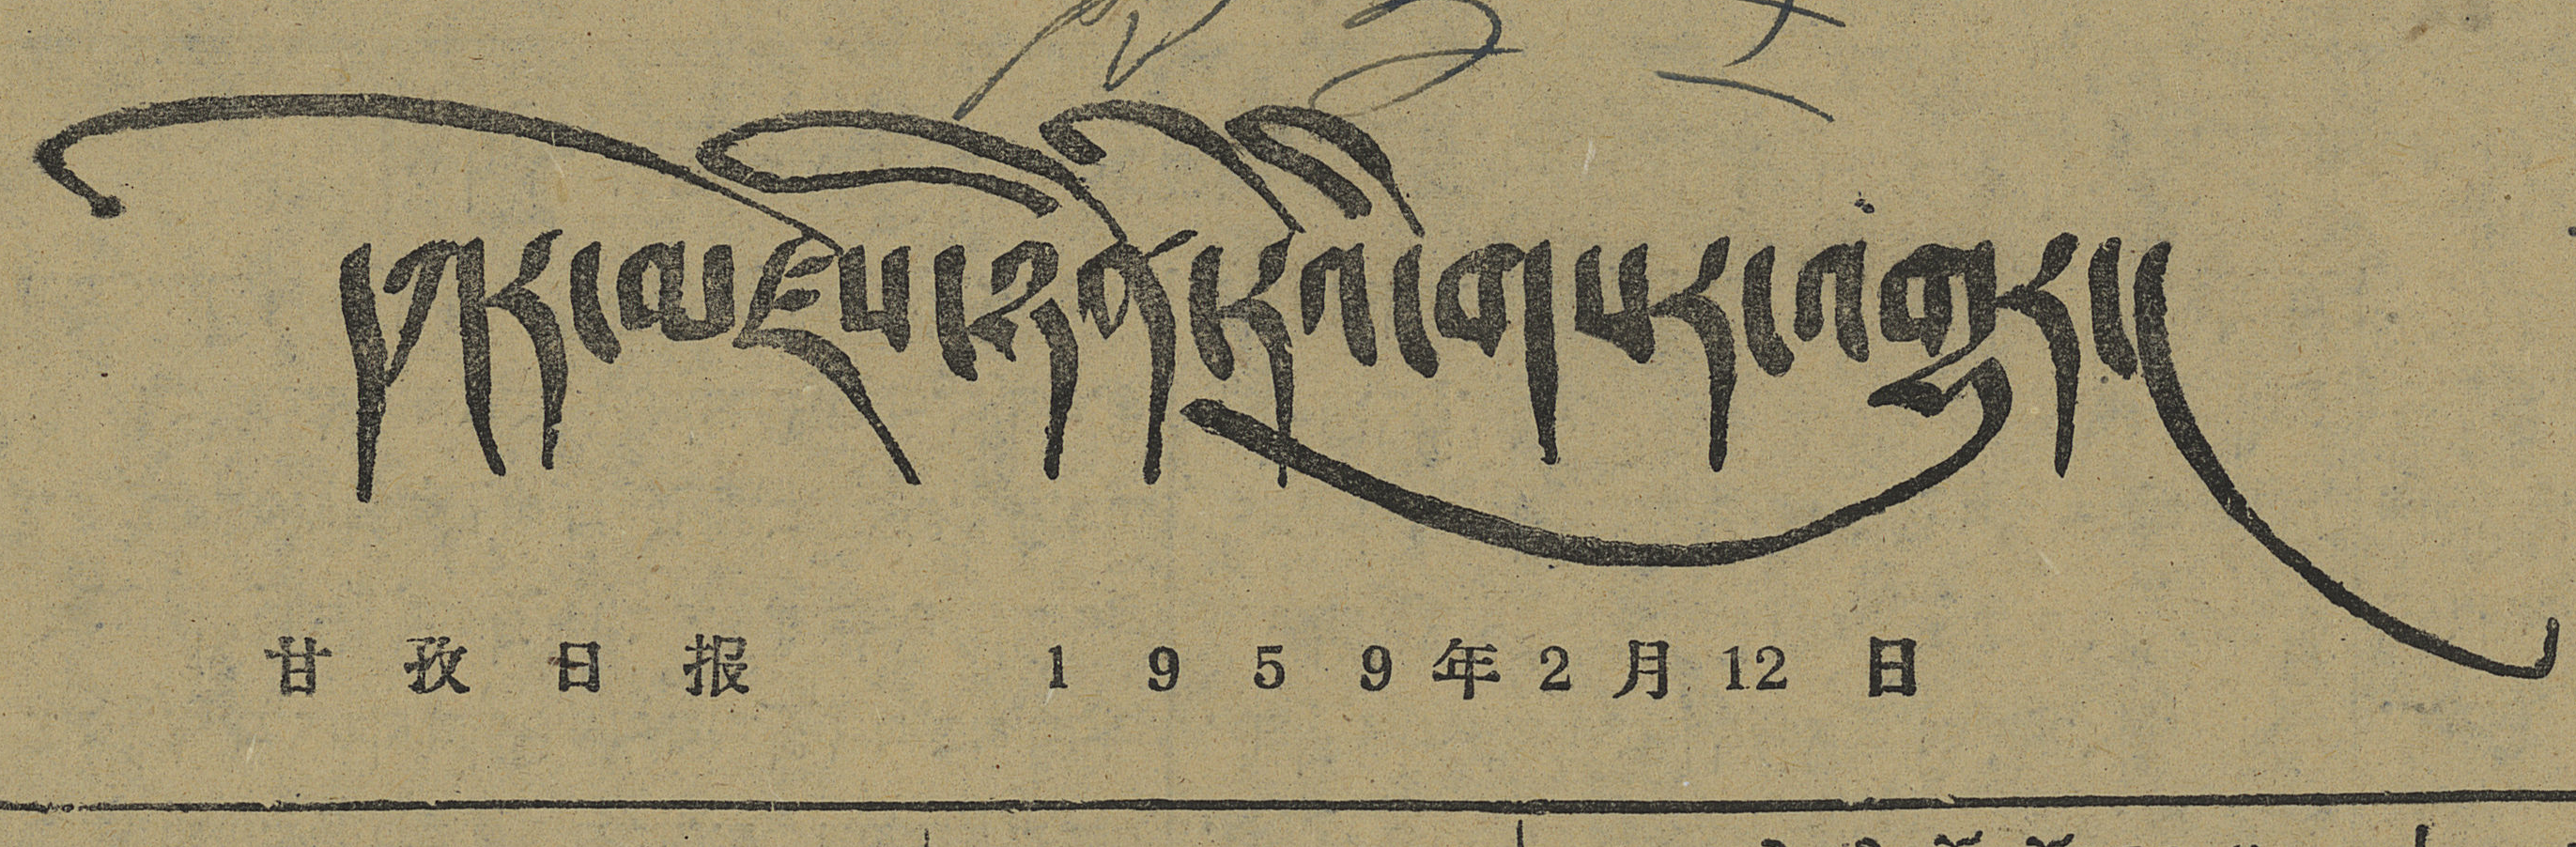དཀར་མཛེས་ཉིན་རེའི་གསར་འགྱུར།
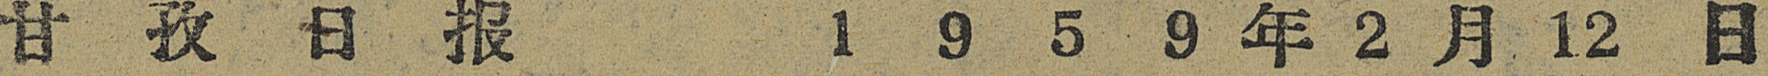甘 孜 日 报 1 9 5 9 年 2 月 12 日
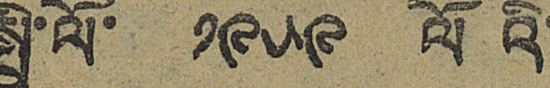སྤྱི་ལོ་ ༡༩༥༩ ལོའི་
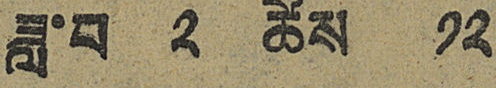ཟླ་བ་ ༢ ཚེས ༡༢
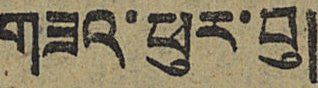གཟའ་ཕུར་བུ།
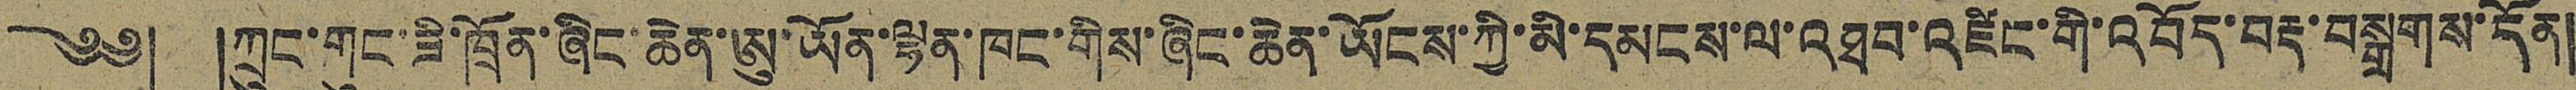༄༅། །ཀྲུང་གུང་ཟི་ཁྲོན་ཞིང་ཆེན་ཨུ་ཡོན་ལྷན་ཁང་གིས་ཞིང་ཆེན་ཡོངས་ཀྱི་མི་དམངས་ལ་འཐབ་འཛིང་གི་འབོད་བརྡ་བསྒྲགས་དོན།
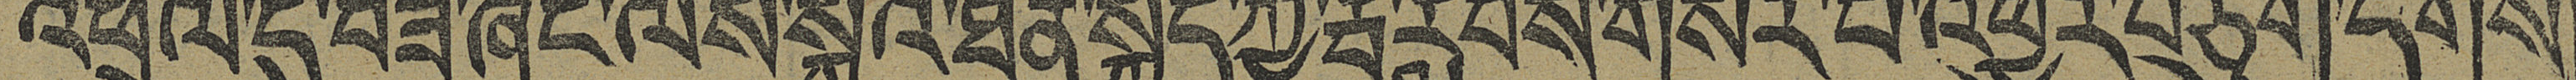འཕྲལ་དུ་བཟོ་ཞིང་ལས་སྒོའི་ཐོན་སྐྱེད་ཀྱི་རྦ་རླབས་གསར་པ་འཕྱུར་བཅུག་དགོས།
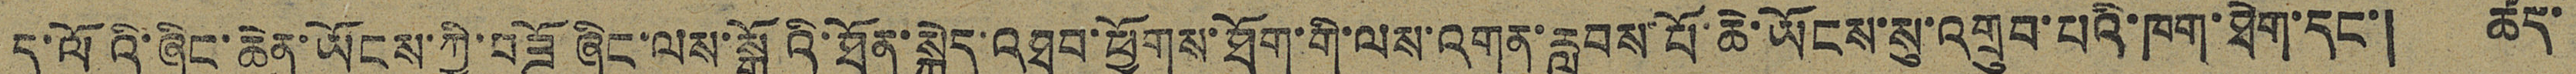ད་ལོའི་ཞིང་ཆེན་ཡོངས་ཀྱི་བཟོ ཞིང་ལས་སྒོའི་ཐོན་སྐྱེད་འཐབ་ཕྱོགས་ཐོག་གི་ལས་འགན་རླབས་པོ་ཆེ་ཡོངས་སུ་འགྲུབ་པའི་ཁག་ཐེག་དང་། ཚད་
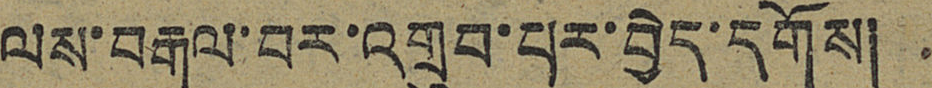ལས་བརྒལ་བར་འགྲུབ་པར་བྱེད་དགོས།
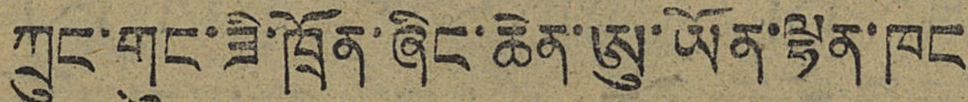ཀྲུང་གུང་ཟི་ཁྲོན་ཞིང་ཆེན་ཨུ་ཡོན་ལྷན་ཁང
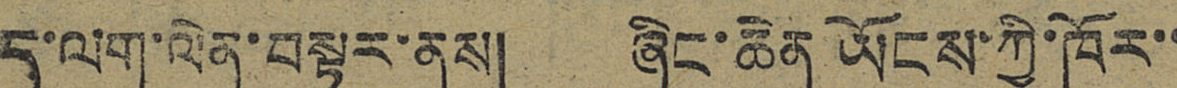དུ་ལག་ལེན་བསྟར་ནས། ཞིང་ཆེན ཡོངས་ཀྱི་ཁོར་་
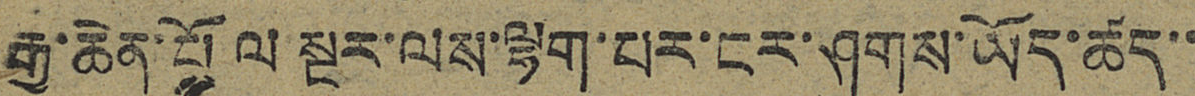རྒྱ་ཆེན་པོ ལ སྔར་ལས་ལྷག་པར་ངར་ཤུགས་ཡོད་ཚད་་
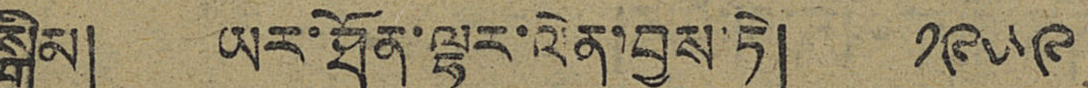སྒྲིམ། ཡར་ཐོན་ལྷུར་ལེན་བྱས་ཏེ། ༡༩༥༩
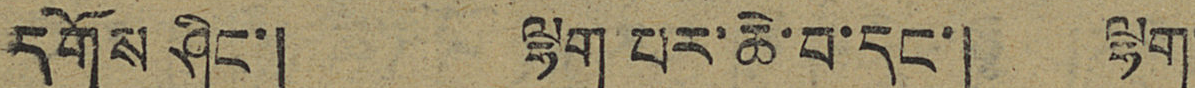དགོས ཤིང་། ལྷག་པར་ཆེ་བ་དང་། ལྷག་
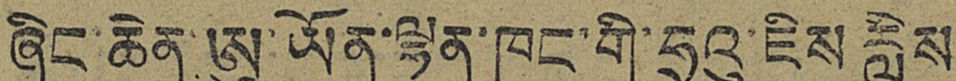ཞིང་ཆེན་ཨུ་ཡོན་ལྷན་ཁང་གི་ཧྲུའུ་ཇིས རླིས་
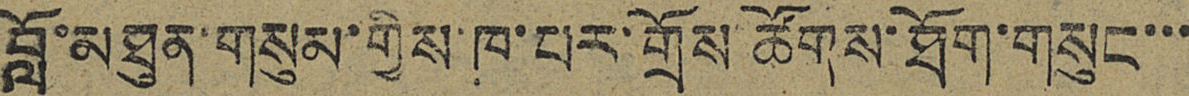བློན་མཐུན་གསུམ་གྱིས་ཁ་པར་གྲོས ཚོགས་ཐོག་གསུང་་་
